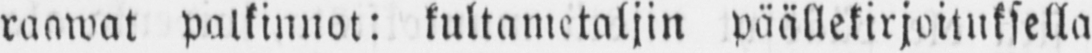raawat palkinnot: kultametaljin päällekirjoituksella
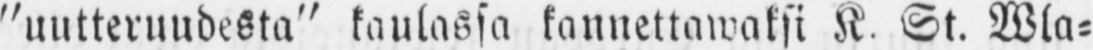"uutteruudesta" kaulassa kannettawaksi K. St. Wla-
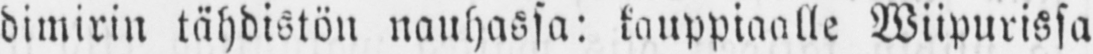dimirin tähdistön nauhassa: kauppiaalle Wiipurissa
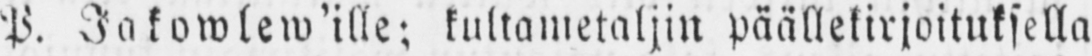P. Jakowlew 'ille; kultametaljin päällekirjoituksella
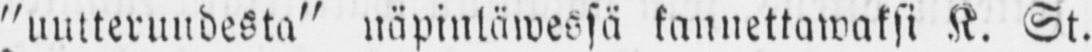"uutteruudesta" näpinläwessä kannettawaksi K. St.
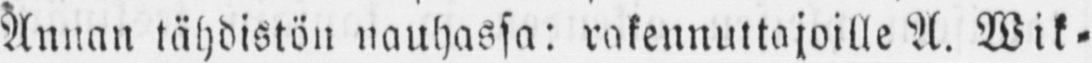Annan tähdistön nauhassa: rakennuttajoille A. Wik-
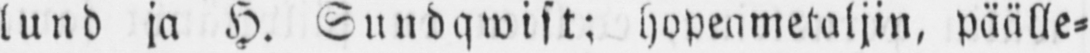lund ja H. Sundqwist: hopeametaljin, päälle-
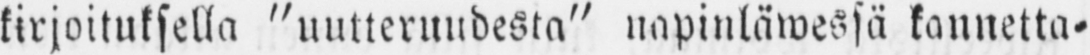kirjoituksella "uutteruudesta" napinläwessä kannetta-
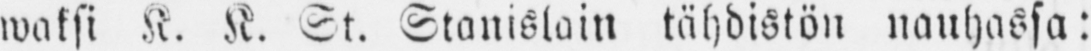waksi K. K. St. Stanislain tähdistön nauhassa:
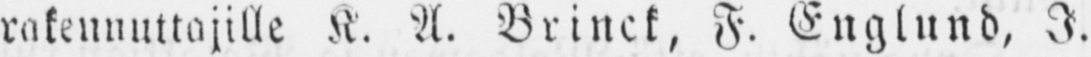rakennuttajille K. A. Brinck, F. Englund, I.
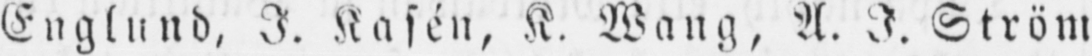Englund, I. Kasén, K. Wang, A. I. Ström
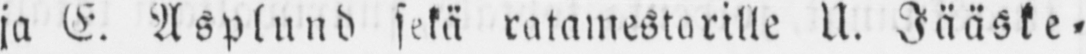ja E. Asplund sekä ratamestarille U. Jääske-
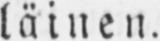läinen.
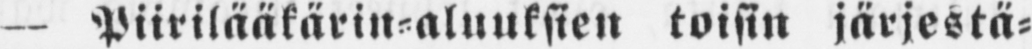— Piirilääkärin-aluuksien toisin järjestä-
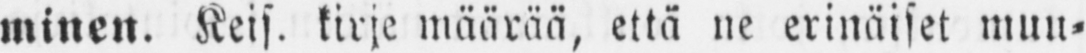minen. Keis. kirje määrää, että ne erinäiset muu-
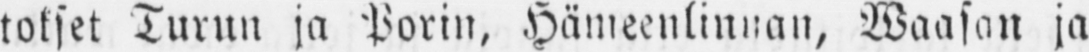tokset Turun ja Porin, Hämeenlinnan, Waasan ja
